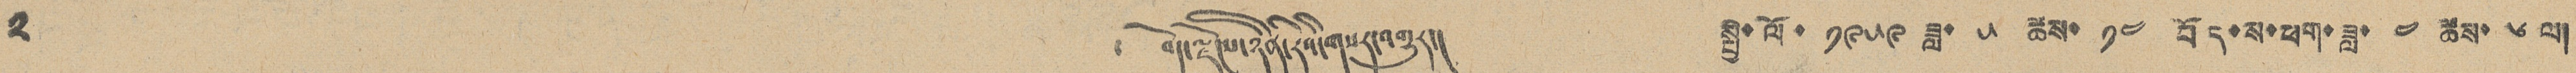༢ ༄ བོད་ལྗོངས་ཉིན་རེའི་གསར་འགྱུར། སྤྱི་ལོ་ ༡༩༥༩ ཟླ་ ༥ ཚེས་ ༡༤ བོད་ས་ཕག་ཟླ་ ༤ ཚེས་ ༦ ལ།
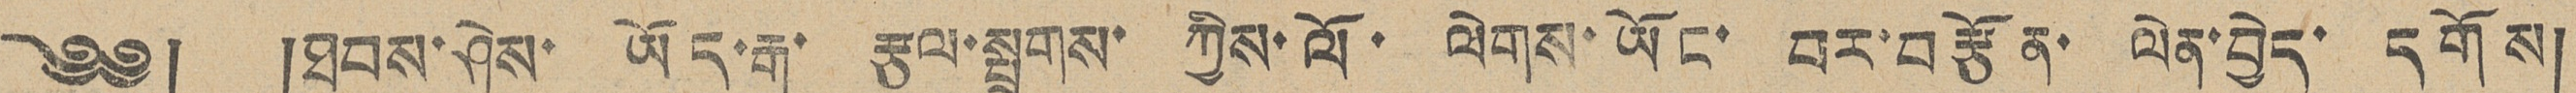༄༅། །ཐབས་ཤེས་ ཡོད་རྒུ་ རྩལ་སྤྲུགས་ ཀྱིས་ལོ་ ལེགས་ཡོང་ བར་བརྩོན་ ལེན་བྱེད་ དགོས།
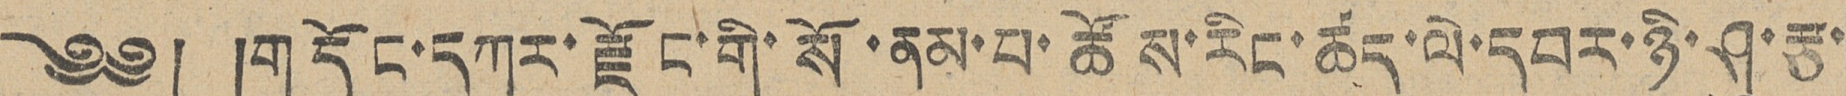༄༅། །གདོང་དཀར་རྫོང་གི་སོ་ནམ་པ་ཚོས་རིང་ཚད་ལེ་དབར་ཉི་ཤུ་རྩ་
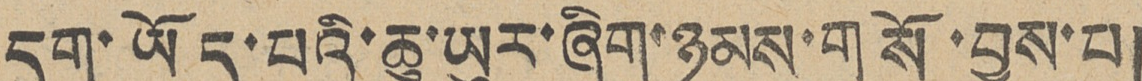དྲུག་ཡོད་པའི་ཆུ་ཡུར་ཞིག་ཉམས་གསོ་བྱས་པ།
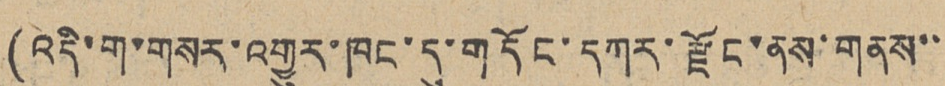(འདི་ག་གསར་འགྱུར་ཁང་དུ་གདོང་དཀར་རྫོང་ནས་གནས་་
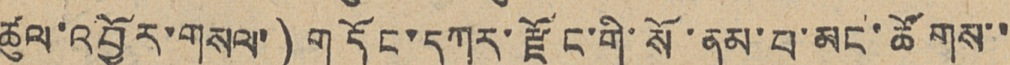ཚུལ་འབྱོར་གསལ་) གདོང་དཀར་རྫོང་གི་སོ་ནམ་པ་མང་ཚོགས་་
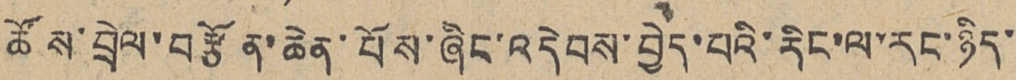ཚོས་བྲེལ་བརྩོན་ཆེན་པོས་ཞིང་འདེབས་བྱེད་པའི་རིང་ལ་རང་ཉིད་
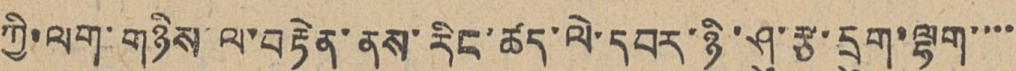ཀྱི་ལག་གཉིས་ལ་བརྟེན་ནས་རིང་ཚད་ལེ་དབར་ཉི་ཤུ་རྩ་དྲུག་ལྷག་་་་
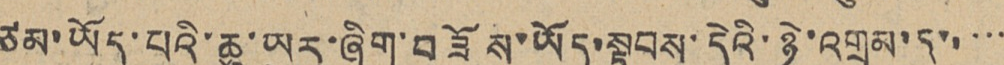ཙམ་ཡོད་པའི་ཆུ་ཡུར་ཞིག་བཟོས་ཡོད་སྟབས་དེའི་ཉེ་འགྲམ་དུ་་་་་
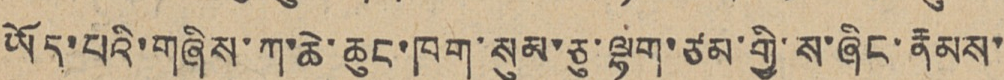ཡོད་པའི་གཞིས་ཀ་ཆེ་ཆུང་ཁག་སུམ་ཅུ་ལྷག་ཙམ་གྱི་ས་ཞིང་རྣམས་་
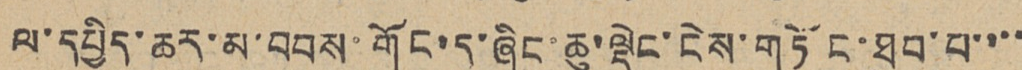ལ་དཔྱིད་ཆར་མ་བབས་གོང་དུ་ཞིང་ཆུ་ལྡེང་ངེས་གཏོང་ཐུབ་པ་་་་
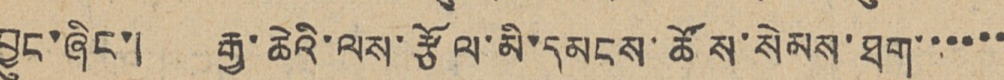བྱུང་ཞིང་། རྒྱ་ཆེའི་ལས་རྩོལ་མི་དམངས་ཚོས་སེམས་ཐག་་་་་་
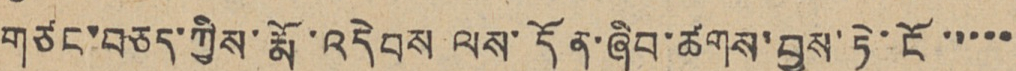གཙང་བཅད་ཀྱིས་རྨོ་འདེབས ལས་དོན་ཞིབ་ཚགས་བྱས་ཏེ་ངོ་་་་་
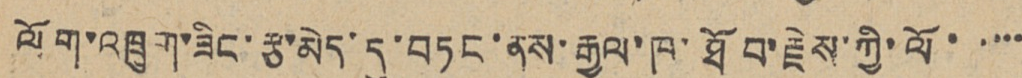ལོག་འཁྲུག་ཟིང་རྩ་མེད་དུ་བཏང་ནས་རྒྱལ་ཁ་ཐོབ་རྗེས་ཀྱི་ལོ་་་་་
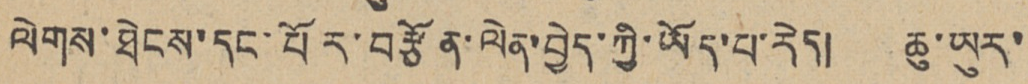ལེགས་ཐེངས་དང་པོར་བརྩོན་ལེན་བྱེད་ཀྱི་ཡོད་པ་རེད། ཆུ་ཡུར་
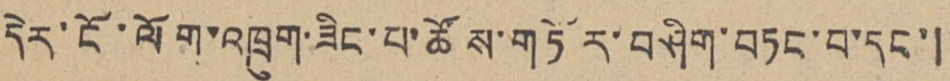དེར་ངོ་ལོག་འཁྲུག་ཟིང་པ་ཚོས་གཏོར་བཤིག་བཏང་བ་དང་།
